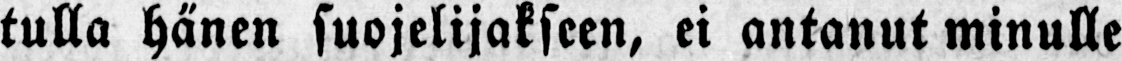tulla hä nen suojelijakseen, ei antanut minulle
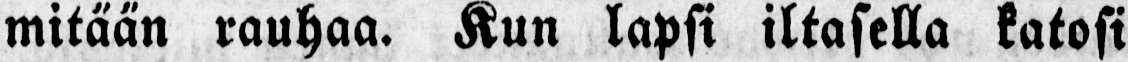mitää n rauhaa. Kun lapsi iltasella katosi
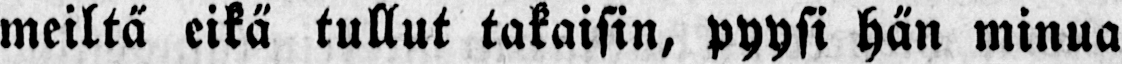meiltä eikä tullut takaisin, pyysi hä n minua
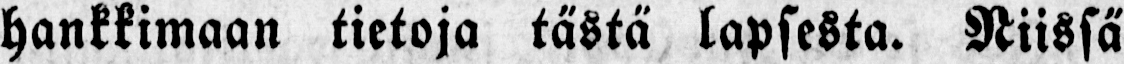hankkimaan tietoja tä stä lapsesta. Niissä
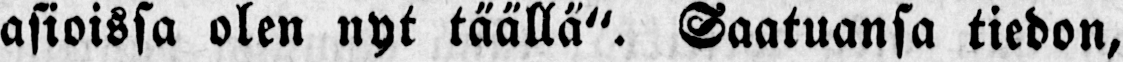asioissa olen nyt täällä ". Saatuansa tiedon,
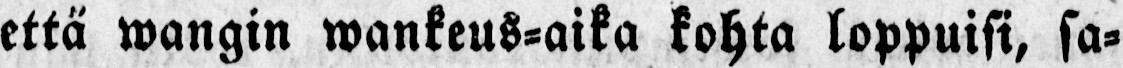että wangin wankeus-aika kohta loppuisi, sa-
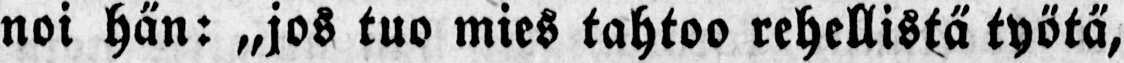noi hä n: „jos tuo mies tahtoo rehellistä tyő tä ,
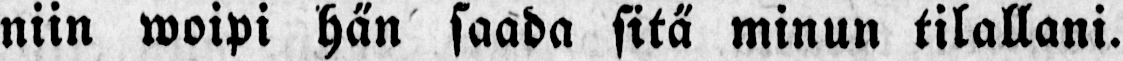niin woipi hä n saada sitä minun tilallani.
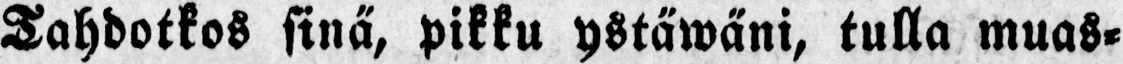Tahdotkos sinä , pikku ystä wä ni, tulla muas-
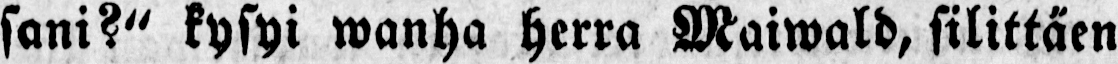sani?" kysyi wanha herra Maiwald, silittä en
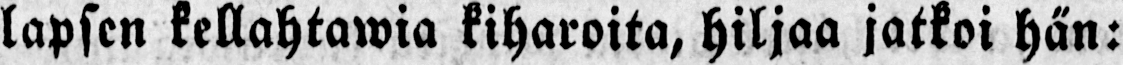lapsen kellahtawia kiharoita, hiljaa jatkoi hä n:
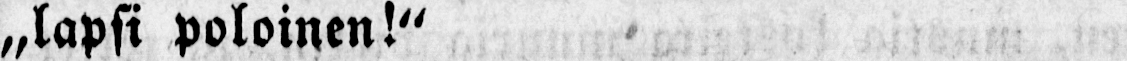„lapsi poloinen!"
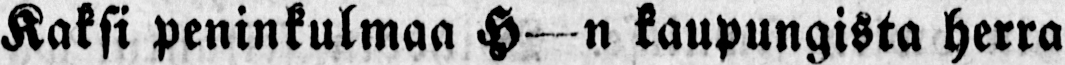Kaksi peninkulmaa H—n kaupungista herra
